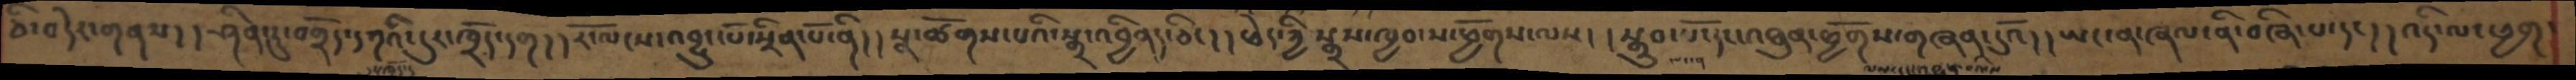ཅི་བདེར་གནས། །ཤིན་ཏུ་བགྲོད་དཀའི་དུར་ཁྲོད་དག། །རོ་ལངས་འབྱུང་པོ་སྲིན་པོ་ནི། །སྣ་ཚོགས་པའི་སྒྲ་འབྱིནད་ཅིང། །ཕེད་ཀྱི་སྒྲས་ཁྱབ་ས་ཕྱོགས་ལས། །སྒྲུབ་པོ་དང་འཐུན་ཕྱོགས་གཞན་དུའོ། །ཡང་ན་ཞལ་ནི་བཞི་པ་དང། །འདི་ལ་ཕྱག་
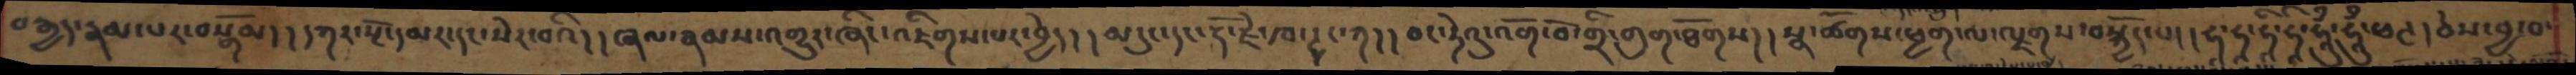བརྒྱད་རྣམ་པར་བསྒོམ། །དཀར་སྔོ་དམར་དང་སེར་བའི། །ཞལ་རྣམས་འགྱུར་ཞིང་འཇིགས་པར་བྱེད། །མདུང་དང་རྡོ་རྗེ་ཁ་ཊྭང་ཀ། །ཅང་ཏེའུ་འགོ་བོ་གྲི་གུག་ཐོགས། །སྣ་ཚོགས་ཕྱག་ལ་ལྗགས་བསྐྱོད་པ། །ཧཱ་ཧཱ་ཧཱི་ཧཱི་ཧཱུྃ་ཧཱུྃ་ཕཊ། ཅེས་བྱ་བ་
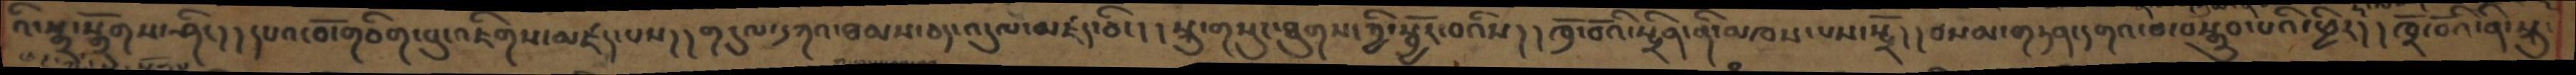འི་སྒྲ་སྒྲོགས་ཤིང།།དཔའ་བོ་གཅིག་པུ་འཇིགས་མཛད་པས།།གདུལ་དཀའ་ཐམས་ཅད་འདུལ་མཛད་ཅིང།།སྐུ་གསུང་ཐུགས་ཀྱི་སྦྱོར་བའིས།།ཁྲོ་བོའི་སྤྲིན་ནི་མཁས་པས་སྤྲོ།།བསམ་གཏན་དགའ་བ་བསྒྲུབ་པའི་ཕྱིར།།ཁྲོ་བོའི་ནི་སྐུ་
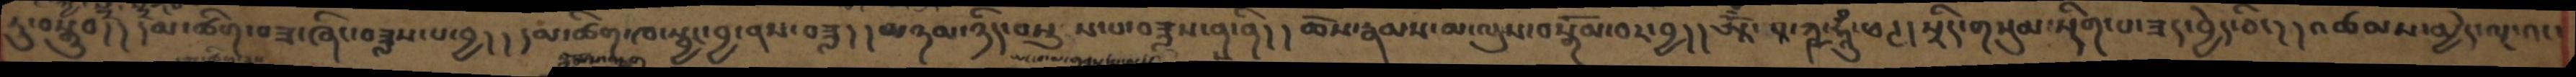ཏུ་བསྒྲུབ།།དམ་ཚིག་བཟ་ཞིང་བཟླས་པ་བྱ།།དམ་ཚིག་ཁ་སྦྱར་བྱ་ནས་བཟླ།།མཉམ་ཉིད་བསྡུས་པ་བཟླས་ན་ནི།།ཆོས་རྣམས་མ་ལུས་བསྒོམ་བར་བྱ།། ཨཱོྃ་པཱ་ཀྵ་ཧཱུྃ་ཕཊ། སྲིད་གསུམ་སྡིག་པ་ཟད་བྱེད་ཅིང།།འཚམས་མྱེད་ལྔ་འང་
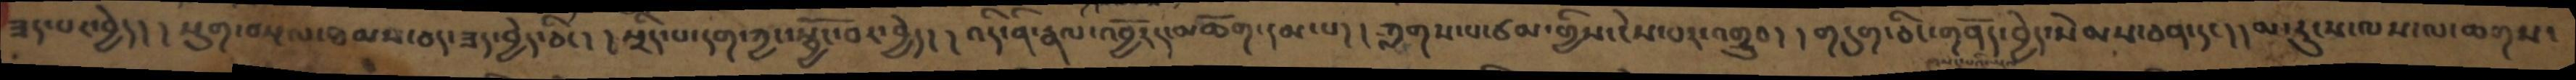ཟད་པར་བྱེད། །སྡུག་བསྔལ་ཐམས་ཅད་ཟད་བྱེད་ཅིང།  སྲིད་པ་དག་ཀྱང་སྦྱོང་བར་བྱེད། །འདི་ནི་རྣལ་འབྱོརད་མཆོག་དམ་པ། །ཀླགས་པ་ཙམ་གྱིས་ངེས་པར་འགྲུབ། །གདུག་ཅིང་གནོད་བྱེད་སེམས་ཅན་དང། །མ་རུངས་ལས་ལ་ཆགས་
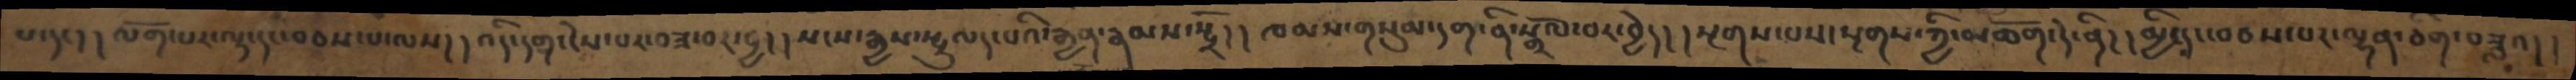པ་དང། །ལོག་པར་ལྟ་དང་བཅས་པ་ལས། །འདི་དག་ངེས་པར་བཟ་བར་བྱ། །སངས་རྒྱས་སྤྲུལད་པའི་རྒྱན་རྣམས་སྤྲོ། །ཁམས་གསུམ་དག་ནི་སྒྲོལ་བར་བྱེད། །སྔགས་པས་སྔགས་ཀྱི་མཆོག་དེ་ནི། །མྱི་དང་བཅས་པར་ལྷན་ཅིག་བཟླའ།།
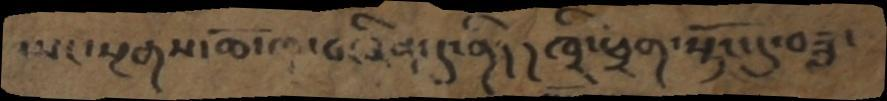ཡང་སྔགས་ཆོ་ག་བཞིན་དུ་ནི།།ཁྲི་ཕྲག་སྟོང་དུ་བཟླ་
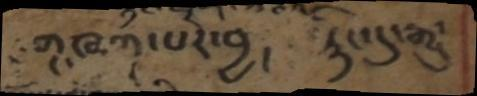གཞག་པར་བྱ། རྟིང་དུ་རྒྱུ་
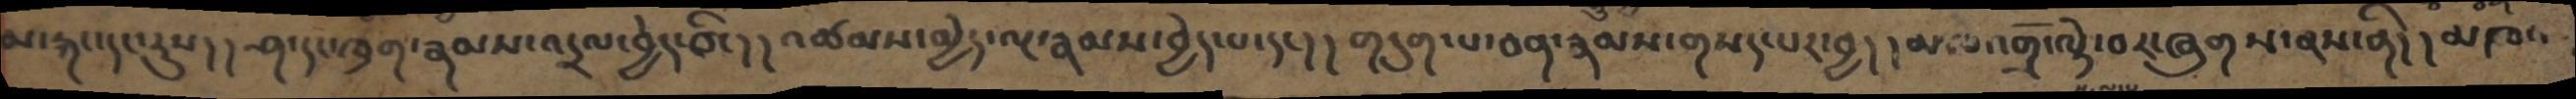མ་རྐང་དང་རུས། །ཤ་དང་ཁྲག་རྣམས་འདྲལ་བྱེད་ཅིང། །འཚམས་མྱེད་ལྔ་རྣམས་བྱེད་པ་དང། །གདུག་པ་ཅན་རྣམས་གསད་པར་བྱ། །མཁའགྲོ་ལྟེ་བར་ཞུགས་ནས་ནི། །མཁའ
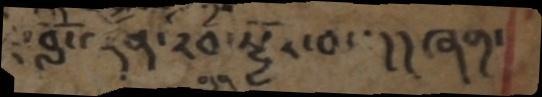བློ་ལྡན་རབ་སྦྱོར་བས།། ཞག་
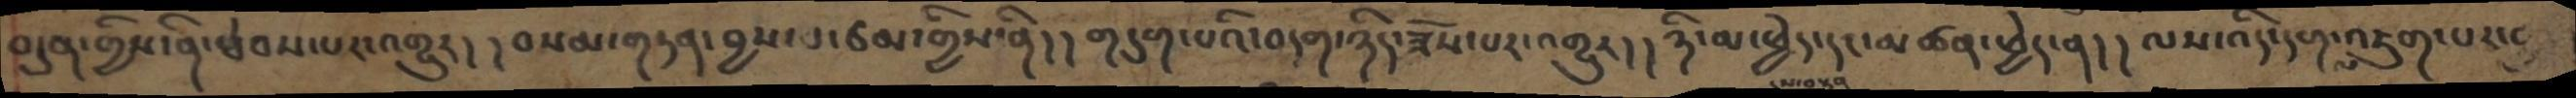བདུན་གྱིས་ནི་ཐེབས་པར་འགྱུར། །བསམ་གཏན་བྱས་པ་ཙམ་གྱིས་ནི། །གདུག་པའི་བདག་ཉིད་ཟོས་པར་འགྱུར། །ཉི་མ་ཕྱེད་དང་མཚན་ཕྱེད་ན། །ལས་འདི་དག་ལ་འཇུག་པར་བྱ།
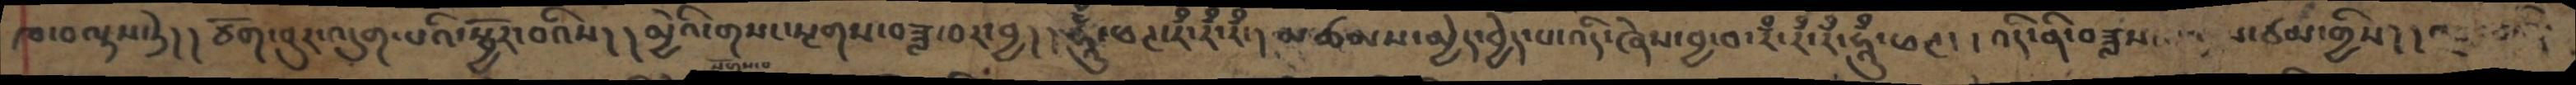ཁ་བལྟས་ཏེ། །ཙོག་བུར་འདུག་པའི་སྦྱོར་བའིས། །མྱེའི་གསང་སྔགས་བཟླ་བར་བྱ། །ཧཱུྃ་ཕཊ་རྃ་རྃ་རྃ་། མཚམས་མྱེད་བྱེད་པ་འདི་ཞེས་བྱ་བ་རྃ་རྃ་རྃ་ཧཱུྃ་ཕཊ། །འདི་ནི་བཟླས་པ་ཙམ་གྱིས། །
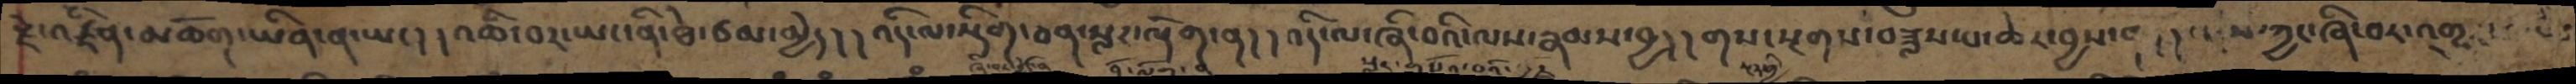རྗེ་འཛིན་མཆོག་ཡིན་ན་ཡང། །འཆི་བར་ཡང་ནི་ཐེ་ཙམ་མྱེད། །འདི་ལ་སྡིག་ཅན་སླར་ལྡོག་ན། །འདི་ལ་ཞི་བའི་ལས་རྣམས་བྱ། །གསང་སྔགས་བཟླས་པ་ཆེར་བྱས་ན། །ངེས་ཀྱང་ཞི་བར་འགྱུར་
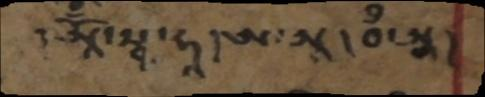།ཨཱོྃ་སྭཱ་ཧཱ། ཨ་ཨཱ། བྃ་ཨཱ།
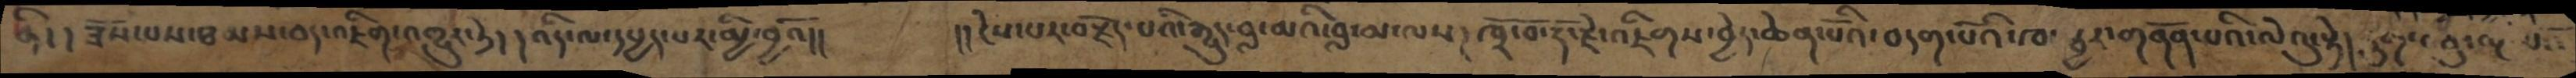ནི། །ཟོས་པས་ཐམས་ཅད་འཇིག་འགྱུར་ཏེ། །འདི་ལ་དཔྱད་པར་མྱི་བྱའོ།།    །།ངེས་པར་བརྗོད་པའི་རྒྱུད་བླ་མའི་བླ་མ་ལས། ཁྲོ་བོ་རྡོ་རྗེ་འཇིགས་བྱེད་ཆེན་པོའི་བདག་པོའི་ཁ་སྦྱར་གནོན་པའི་ལེའུ་སྟེ། རྟགས་ཅུ་ལྔ་པའོ།
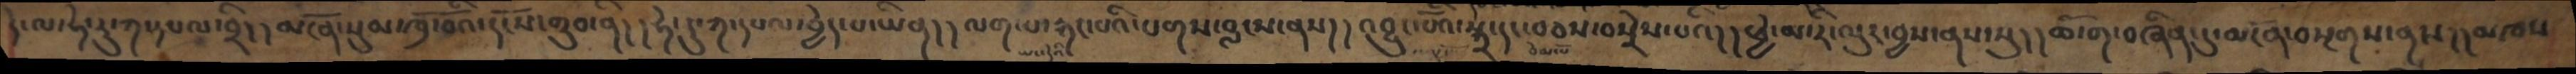དེ་ལ་ཧེ་རུ་ཀ་དཔལ་བྲི། །མངོན་སུམ་ཁྲོ་བོའི་དངོས་གྲུབ་ནི། །ཧེ་རུ་ཀ་དཔལ་བྱེད་པ་ཡིན། །ལག་པ་རྐང་པའི་པགས་བླངས་ནས། །འབྱུང་པོའི་སྒྲ་དང་བཅས་བསྲེས་པའི། །ཕྱེ་མ་རི་ལུར་བྱས་ནས་སུ། །ཆོ་ག་བཞིན་དུ་མངོན་བསྔགས་ནས།།མཁས
